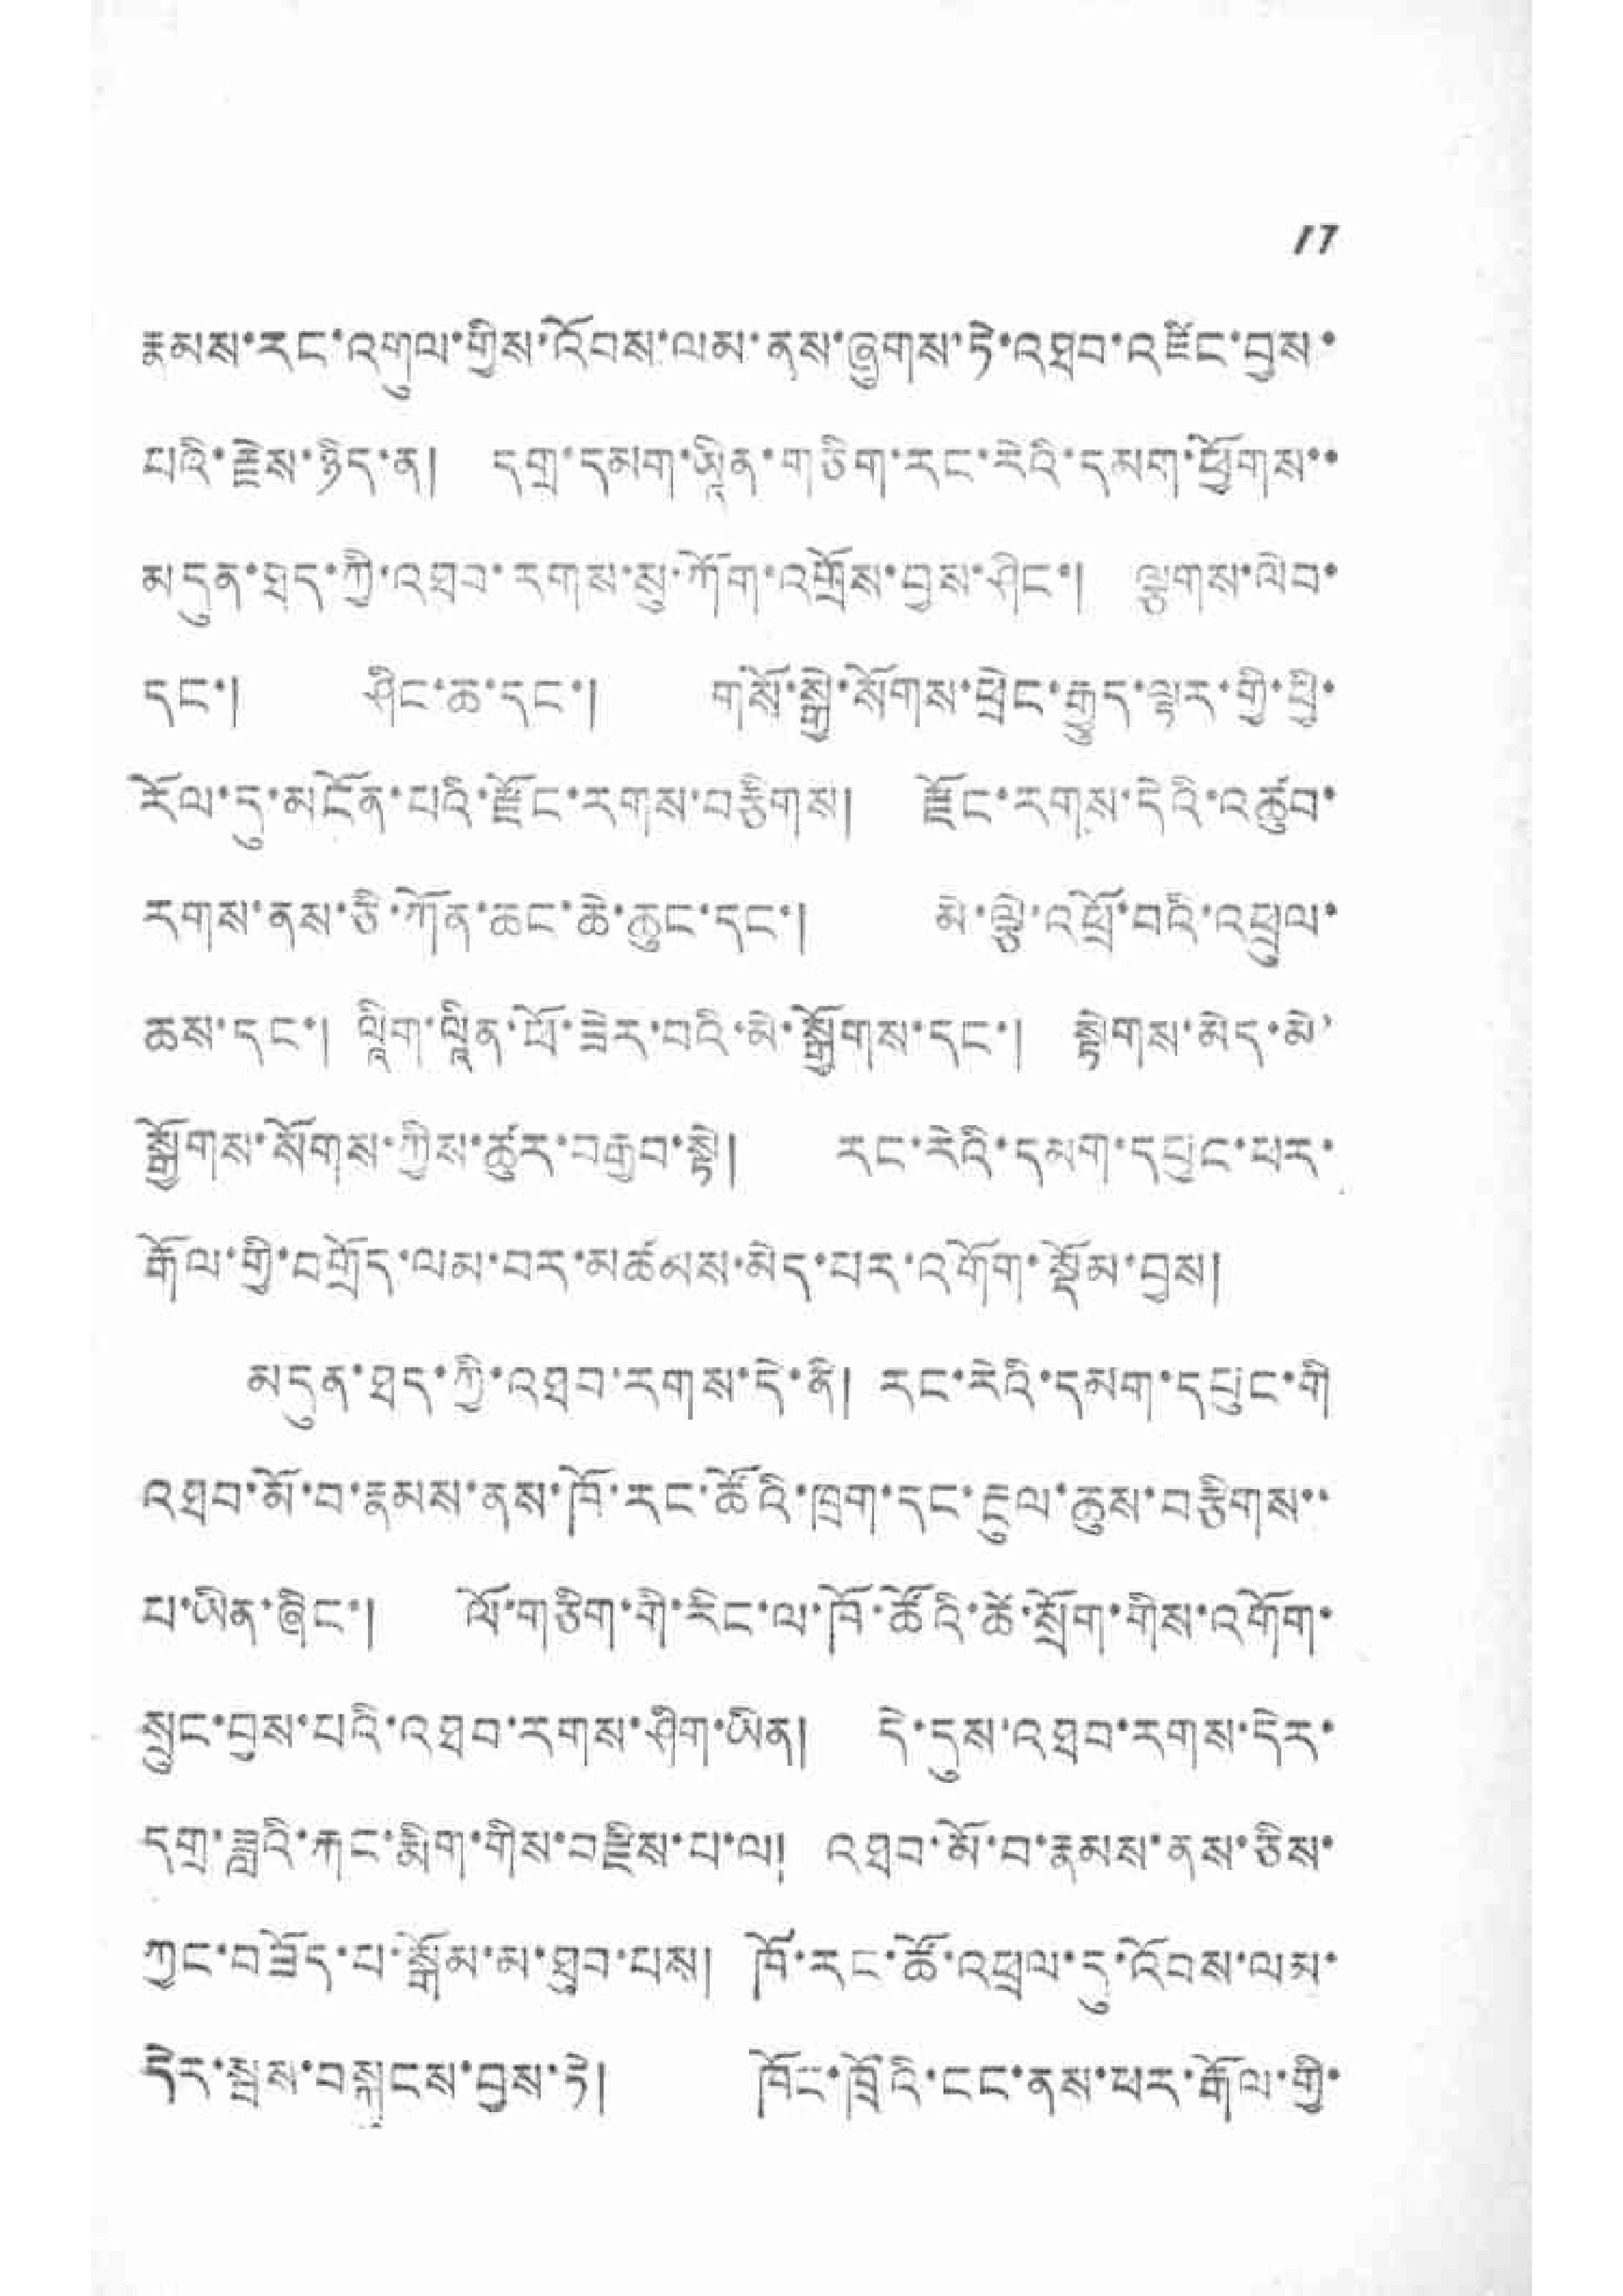17
རྣམས་རང་འགུལ་གྱིས་འོབས་ལམ་ནས་ཞུགས་ཏེ་འཐབ་འཛོང་བྱས་
པའི་རྗེས་ཉེད་ན། དགྲ་དམག་ཡཱིན་གཅིག་རང་རེའི་དམག་ཕྱོགས་་
མདུན་ཐད་ཀྱི་འཐག་རགས་སུ་ཀོག་འགྲོས་བྱས་ཤིང་། ལྕགས་ལེབ་
དང་། ཤིང་ཆ་དང་། གསོ་སྒྱེ་སོགས་ཕྲེང་རྒྱུད་སྟར་གྱི་ཕྱི་
རོལ་དུ་མངོན་པའི་རྫོང་རགས་བརྩིགས། རྫོང་རགས་དེའི་འཚུབ་
རགས་ནས་ཅི་ཀོན་ཆང་ཆེ་ཆུང་དང་། མེ་ལྕེ་འཕྲོ་བའི་འཕྲུལ་
ཆས་དང་། ལཱིག་ལཱིན་ཕོ་ཟེར་བའི་མེ་སྒྱོགས་དང་། སྟེགས་མེད་མེ་
སྒྱོགས་སོགས་ཀྱིས་ཚུར་བརྒྱབ་སྟེ། རང་རེའི་དམག་དཔུང་ཕར་
རྒོལ་གྱི་བགྲོད་ལམ་བར་མཚམས་མེད་པར་འགོག་སྡོམ་བྱས།
མདུན་ཐད་ཀྱི་འཐབ་རགས་དེ་ནི། རང་རེའི་དམག་དཔུང་གི
འཐབ་མོ་བ་རྣམས་ནས་ཁོ་རང་ཚོའི་ཁྲག་དང་རྔུལ་ཆུས་བརྩིགས་་
པ་ཡིན་ཞིང་། ལོ་གཅིག་གི་རིང་ལ་ཁོ་ཚོའི་ཚེ་སྲོག་གིས་འགོག་
སྲུང་བྱས་པའི་འཐབ་རགས་ཤིག་ཡིན། དེ་དུས་འཐབ་དགས་དེར་
དགྲ་ཟླའི་རྐང་རྨིག་གིས་བརྗིས་བ་ལ། འཐབ་མོ་བ་རྣམས་ནས་ཅིས་
ཀྱང་བཟོད་པ་སྒོམ་མ་ཐུབ་པས། ཁོ་རང་ཚོ་འཕྲལ་དུ་འོབས་ལམ་
དིར་སྦས་བསྐུངས་བྱས་ཏེ། ཁོང་ཁྲོའི་ངང་ནས་ཕར་རྒོལ་གྱི་
